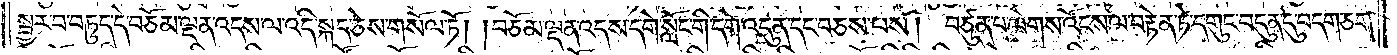སྦྱར་བ་བཏུད་དེ་བཅོམ་ལྡན་འདས་ལ་འདི་སྐད་ཅེས་གསོལ་ཏོ། །བཅོམ་ལྡན་འདས་དགེ་སློང་གི་དགེ་འདུན་དང་བཅས་པས། བཙུན་པ་ལེགས་འོངས་ལ་བརྟེན་ཏེ་དགུང་བདུན་དུ་བདག་ཅག་
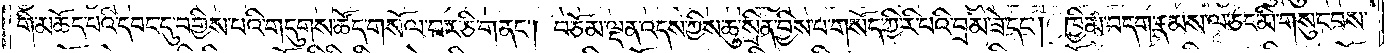གི་མཆོད་པའི་དབང་དུ་བགྱིས་པའི་གདུགས་ཚོད་གསོལ་བར་ཅི་གནང༌། བཅོམ་ལྡན་འདས་ཀྱིས་ཆུ་སྲིན་བྱིས་པ་གསོད་ཀྱི་རི་པའི་བྲམ་ཟེ་དང༌། ཁྱིམ་བདག་རྣམས་ལ་ཅང་མི་གསུང་བས་
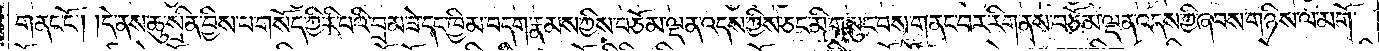གནང་ངོ༌། །དེ་ནས་ཆུ་སྲིན་བྱིས་པ་གསོད་ཀྱི་རི་པའི་བྲམ་ཟེ་དང་ཁྱིམ་བདག་རྣམས་ཀྱིས་བཅོམ་ལྡན་འདས་ཀྱིས་ཅང་མི་གསུང་བས་གནང་བར་རིག་ནས་བཅོམ་ལྡན་འདས་ཀྱི་ཞབས་གཉིས་ལ་མགོ་
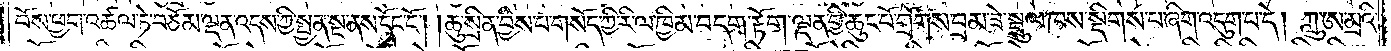བོས་ཕྱག་འཚལ་ཏེ་བཅོམ་ལྡན་འདས་ཀྱི་སྤྱན་ང་ནས་དོང་ངོ༌། །ཆུ་སྲིན་བྱི་པ་གསོད་ཀྱི་རི་ལ་ཁྱིམ་བདག་རྟོག་ལྡན་གྱི་ཆུང་པོ་གྲོགས་བྲམ་ཟེ་སྦྲུལ་ཁས་སྡིགས་པ་ཞིག་འདུག་པ་དེ། ཀླུ་ཨ་མྲའི་
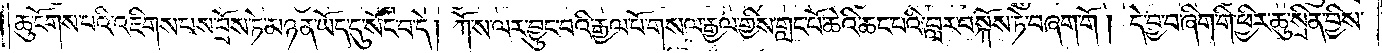ཆུ་ངོགས་པའི་འཇིགས་པས་བྲོས་ཏེ་མཉན་ཡོད་དུ་སོང་བ་དེ། ཀོ་ས་ལར་བྱུང་བའི་རྒྱལ་པོ་གསལ་རྒྱལ་གྱིས་གླང་པོ་ཆེའི་ཆང་པའི་བླར་བསྐོས་ཏེ་བཞག་གོ །དེ་བྱ་བ་ཞིག་གི་ཕྱིར་ཆུ་སྲིན་བྱིས་
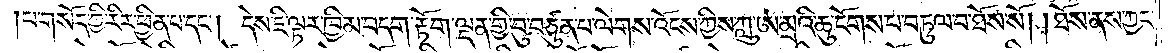པ་གསོད་ཀྱི་རིར་ཕྱིན་པ་དང༌། དེས་ཇི་ལྟར་ཁྱིམ་བདག་རྟོག་ལྡན་གྱི་བུ་བཙུན་པ་ལེགས་འོངས་ཀྱིས་ཀླུ་ཨ་མྲའི་ཆུ་ངོགས་པ་བཏུལ་བ་ཐོས་སོ། །ཐོས་ནས་ཀྱང་
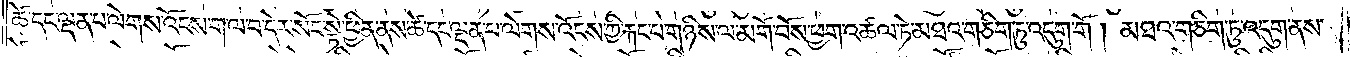ཚེ་དང་ལྡན་པ་ལེགས་འོངས་ག་ལ་བ་དེར་སོང་སྟེ་ཕྱིན་ནས་ཚེ་དང་ལྡན་པ་ལེགས་འོངས་ཀྱི་རྐང་པ་གཉིས་ལ་མགོ་བོས་ཕྱག་འཚལ་ཏེ་མཐའ་གཅིག་ཏུ་འདུག་གོ །མཐའ་གཅིག་ཏུ་འདུག་ནས་
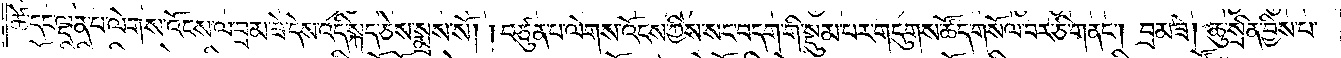ཚེ་དང་ལྡན་པ་ལེགས་འོངས་ལ་བྲམ་ཟེ་དེས་འདི་སྐད་ཅེས་སྨྲས་སོ། །བཙུན་པ་ལེགས་འོངས་ཀྱིས་སང་བདག་གི་སྡུམ་པར་གདུགས་ཚོད་གསོལ་བར་ཅི་གནང༌། བྲམ་ཟེ། ཆུ་སྲིན་བྱིས་པ་
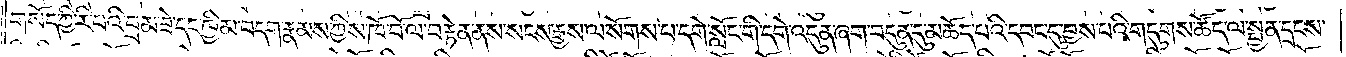གསོད་ཀྱི་རི་པའི་བྲམ་ཟེ་དང་ཁྱིམ་བདག་རྣམས་ཀྱིས་ཁོ་བོ་ལ་བརྟེན་ནས་སངས་རྒྱས་ལ་སོགས་པ་དགེ་སློང་གི་དགེ་འདུན་ཞག་བདུན་དུ་མཆོད་པའི་དབང་དུ་བྱས་པའི་གདུགས་ཚོད་ལ་སྤྱན་དྲངས་
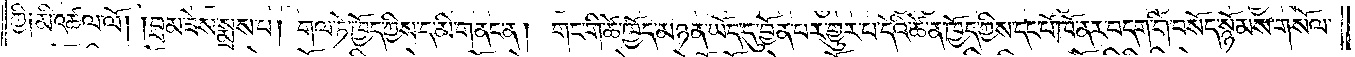ཀྱི༑ མི་འཚལ་ལོ། །བྲམ་ཟེས་སྨྲས་པ། གལ་ཏེ་ཁྱོད་ཀྱིས་ད་མི་གནང་ན། གང་གི་ཚེ་ཁྱོད་མཉན་ཡོད་དུ་བྱོན་པར་གྱུར་པ་དེའི་ཚེ་ན་ཁྱོད་ཀྱིས་དང་པོ་ཁོ་ནར་བདག་གི་བསོད་སྙོམས་གསོལ་
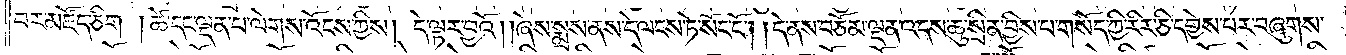བར་མཛོད་ཅིག །ཚེ་དང་ལྡན་པ་ལེགས་འོངས་ཀྱིས། དེ་ལྟར་བྱའོ། །ཞེས་སྨྲས་ནས་དེ་ལངས་ཏེ་སོང་ངོ༌། །དེ་ནས་བཅོམ་ལྡན་འདས་ཆུ་སྲིན་བྱིས་པ་གསོད་ཀྱི་རིར་ཅི་དགྱེས་པར་བཞུགས་
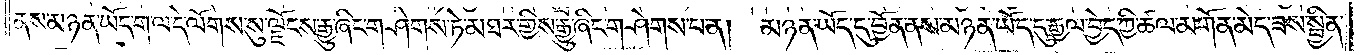ནས་མཉན་ཡོད་ག་ལ་དེ་ལོགས་སུ་ལྗོངས་རྒྱུ་ཞིང་གཤེགས་ཏེ་མཐར་གྱིས་རྒྱུ་ཞིང་གཤེགས་པ་ན། མཉན་ཡོད་དུ་བྱོན་ནས་མཉན་ཡོད་དུ་རྒྱལ་བྱེད་ཀྱི་ཚལ་མགོན་མེད་ཟས་སྦྱིན་
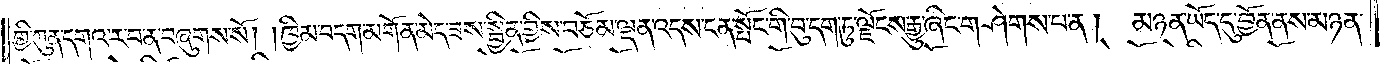གྱི་ཀུན་དགའ་ར་བ་ན་བཞུགས་སོ། །ཁྱིམ་བདག་མགོན་མེད་ཟས་སྦྱིན་གྱིས་བཅོམ་ལྡན་འདས་ངན་སྤོང་གི་བུ་དག་ཏུ་ལྗོངས་རྒྱུ་ཞིང་གཤེགས་པ་ན། མཉན་ཡོད་དུ་བྱོན་ནས་མཉན་
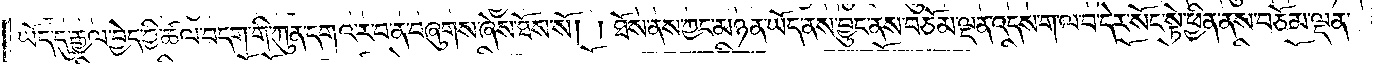ཡོད་དུ་རྒྱལ་བྱེད་ཀྱི་ཚལ་བདག་གི་ཀུན་དགའ་ར་བ་ན་བཞུགས་ཞེས་ཐོས་སོ། །ཐོས་ནས་ཀྱང་མཉན་ཡོད་ནས་བྱུང་ནས་བཅོམ་ལྡན་འདས་ག་ལ་བ་དེར་སོང་སྟེ་ཕྱིན་ནས་བཅོམ་ལྡན་
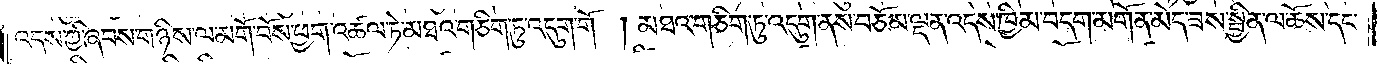འདས་ཀྱི་ཞབས་གཉིས་ལ་མགོ་བོས་ཕྱག་འཚལ་ཏེ་མཐའ་གཅིག་ཏུ་འདུག་གོ ། མཐའ་གཅིག་ཏུ་འདུག་ནས་བཅོམ་ལྡན་འདས་ཁྱིམ་བདག་མགོན་མེད་ཟས་སྦྱིན་ལ་ཆོས་དང་
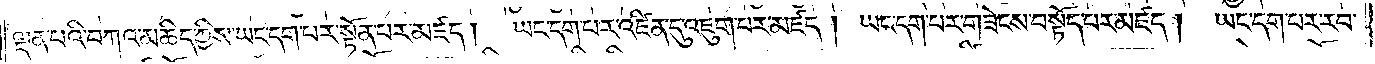ལྡན་པའི་བཀའ་མཆིད་ཀྱིས་ཡང་དག་པར་སྟོན་པར་མཛད། ཡང་དག་པར་འཛིན་དུ་འཇུག་པར་མཛད། ཡང་དག་པར་གཟེངས་བསྟོད་པར་མཛད། ཡང་དག་པར་རབ་
